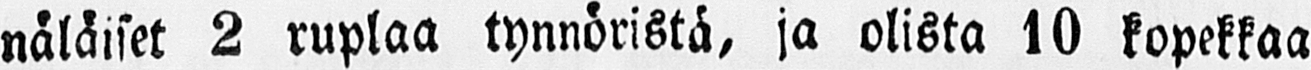näläiset 2 ruplaa tynnöristä, ja olista 10 kopekkaa
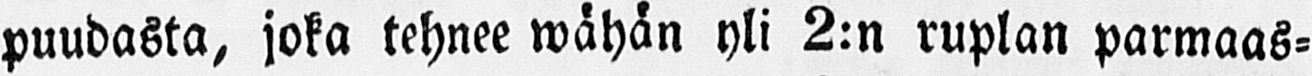puudasta, joka tehnee wähän yli 2:n ruplan parmaas-
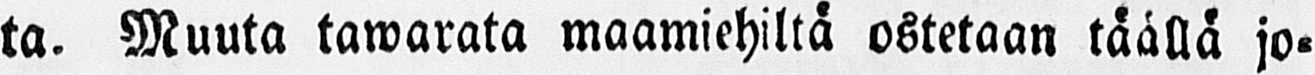ta. Muuta tawarata maamiehiltä ostetaan täällä jo-
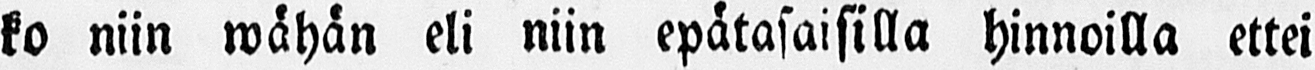ko niin wähän eli niin epätasaisilla hinnoilla ettei
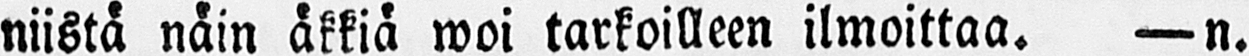niistä näin äkkiä woi tarkoilleen ilmoittaa. —n.
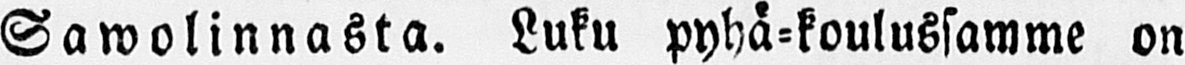Sawolinnasta. Luku pyhä-koulussamme on
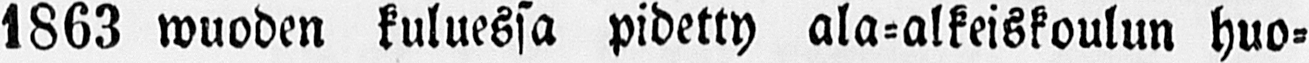1863 wuoden kuluessa pidetty ala-alkeiskoulun huo-
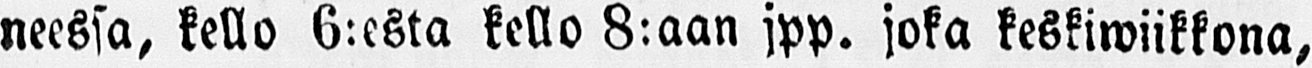neessa, kello 6:esta kello 8:aan jpp. joka keskiwiikkona,
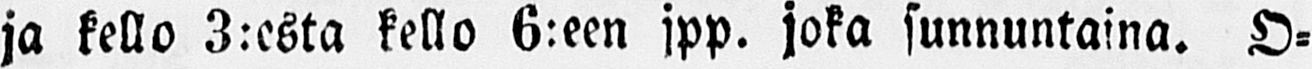ja kello 3:esta kello 6:een jpp. joka sunnuntaina. O-
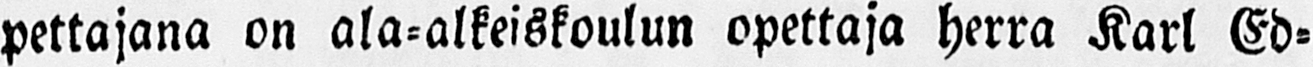pettajana on ala-alkeiskoulun opettaja herra Karl Ed-
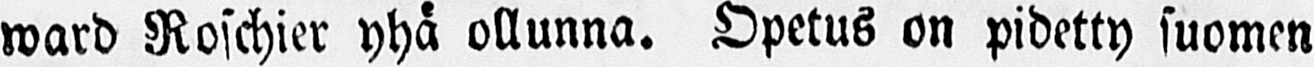ward Roschier yhä ollunna. Opetus on pidetty suomen
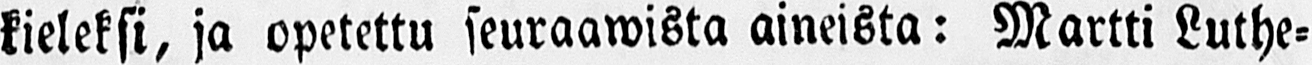kieleksi, ja opetettu seuraawista aineista: Martti Luthe-
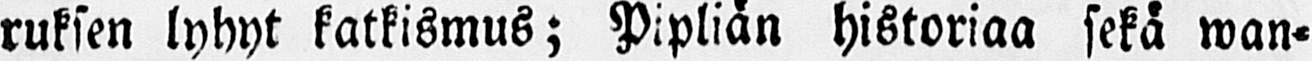ruksen lyhyt katkismus; Pipliän historiaa sekä wan-
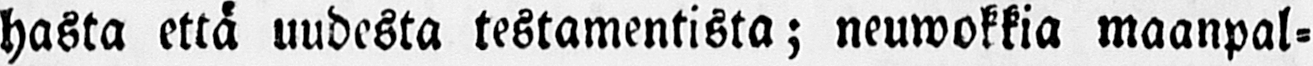hasta että uudesta testamentista; neuwokkia maanpal-
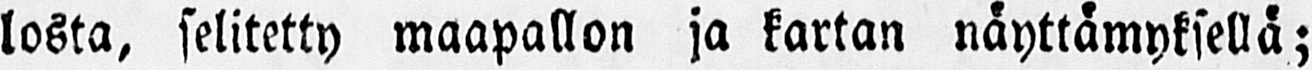losta, selitetty maapallon ja kartan näyttämyksellä;
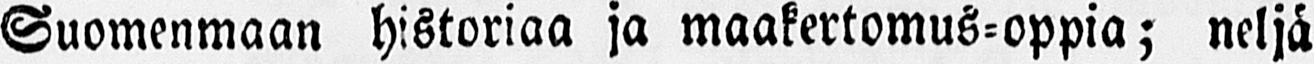Suomenmaan historiaa ja maakertomus-oppia; neljä
